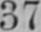N:o 37
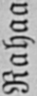Rahaa
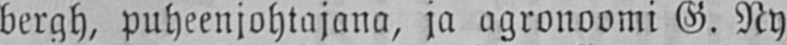bergh, puheenjohtajana, ja agronoomi G. Ny-
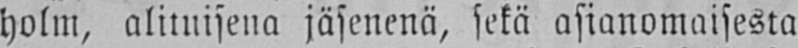holm, alituisena jäsenenä, sekä asianomaisesta
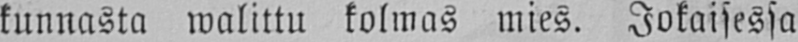kunnasta walittu kolmas mies. Jokaisessa
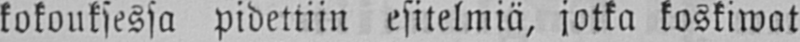kokouksessa pidettiin esitelmiä, jotka koskiwat
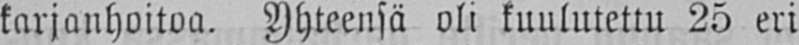karjanhoitoa. Yhteensä oli kuulutettu 25 eri
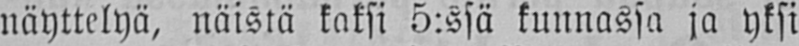näyttelyä, näistä kaksi 5:ssä kunnassa ja yksi
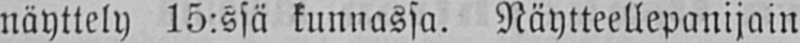näyttely 15:ssä kunnassa. Näytteellepanijain
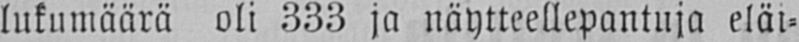lukumäärä oli 333 ja näytteellepantuja eläi-
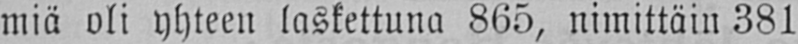miä oli yhteen laskettuna 865, nimittäin 381
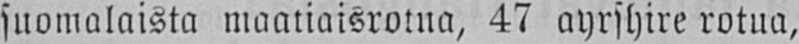suomalaista maatiaisrotua, 47 ayrshire rotua,
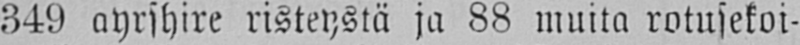349 ayrshire risteystä ja 88 muita rotusekoi-
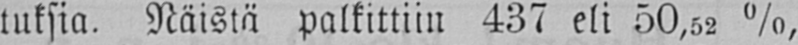tuksia. Näistä palkittiin 437 eli 50,52 %,
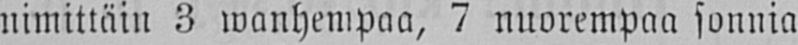nimittäin 3 wanhempaa, 7 nuorempaa sonnia
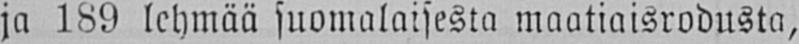ja 189 lehmää suomalaisesta maatiaisrodusta,
